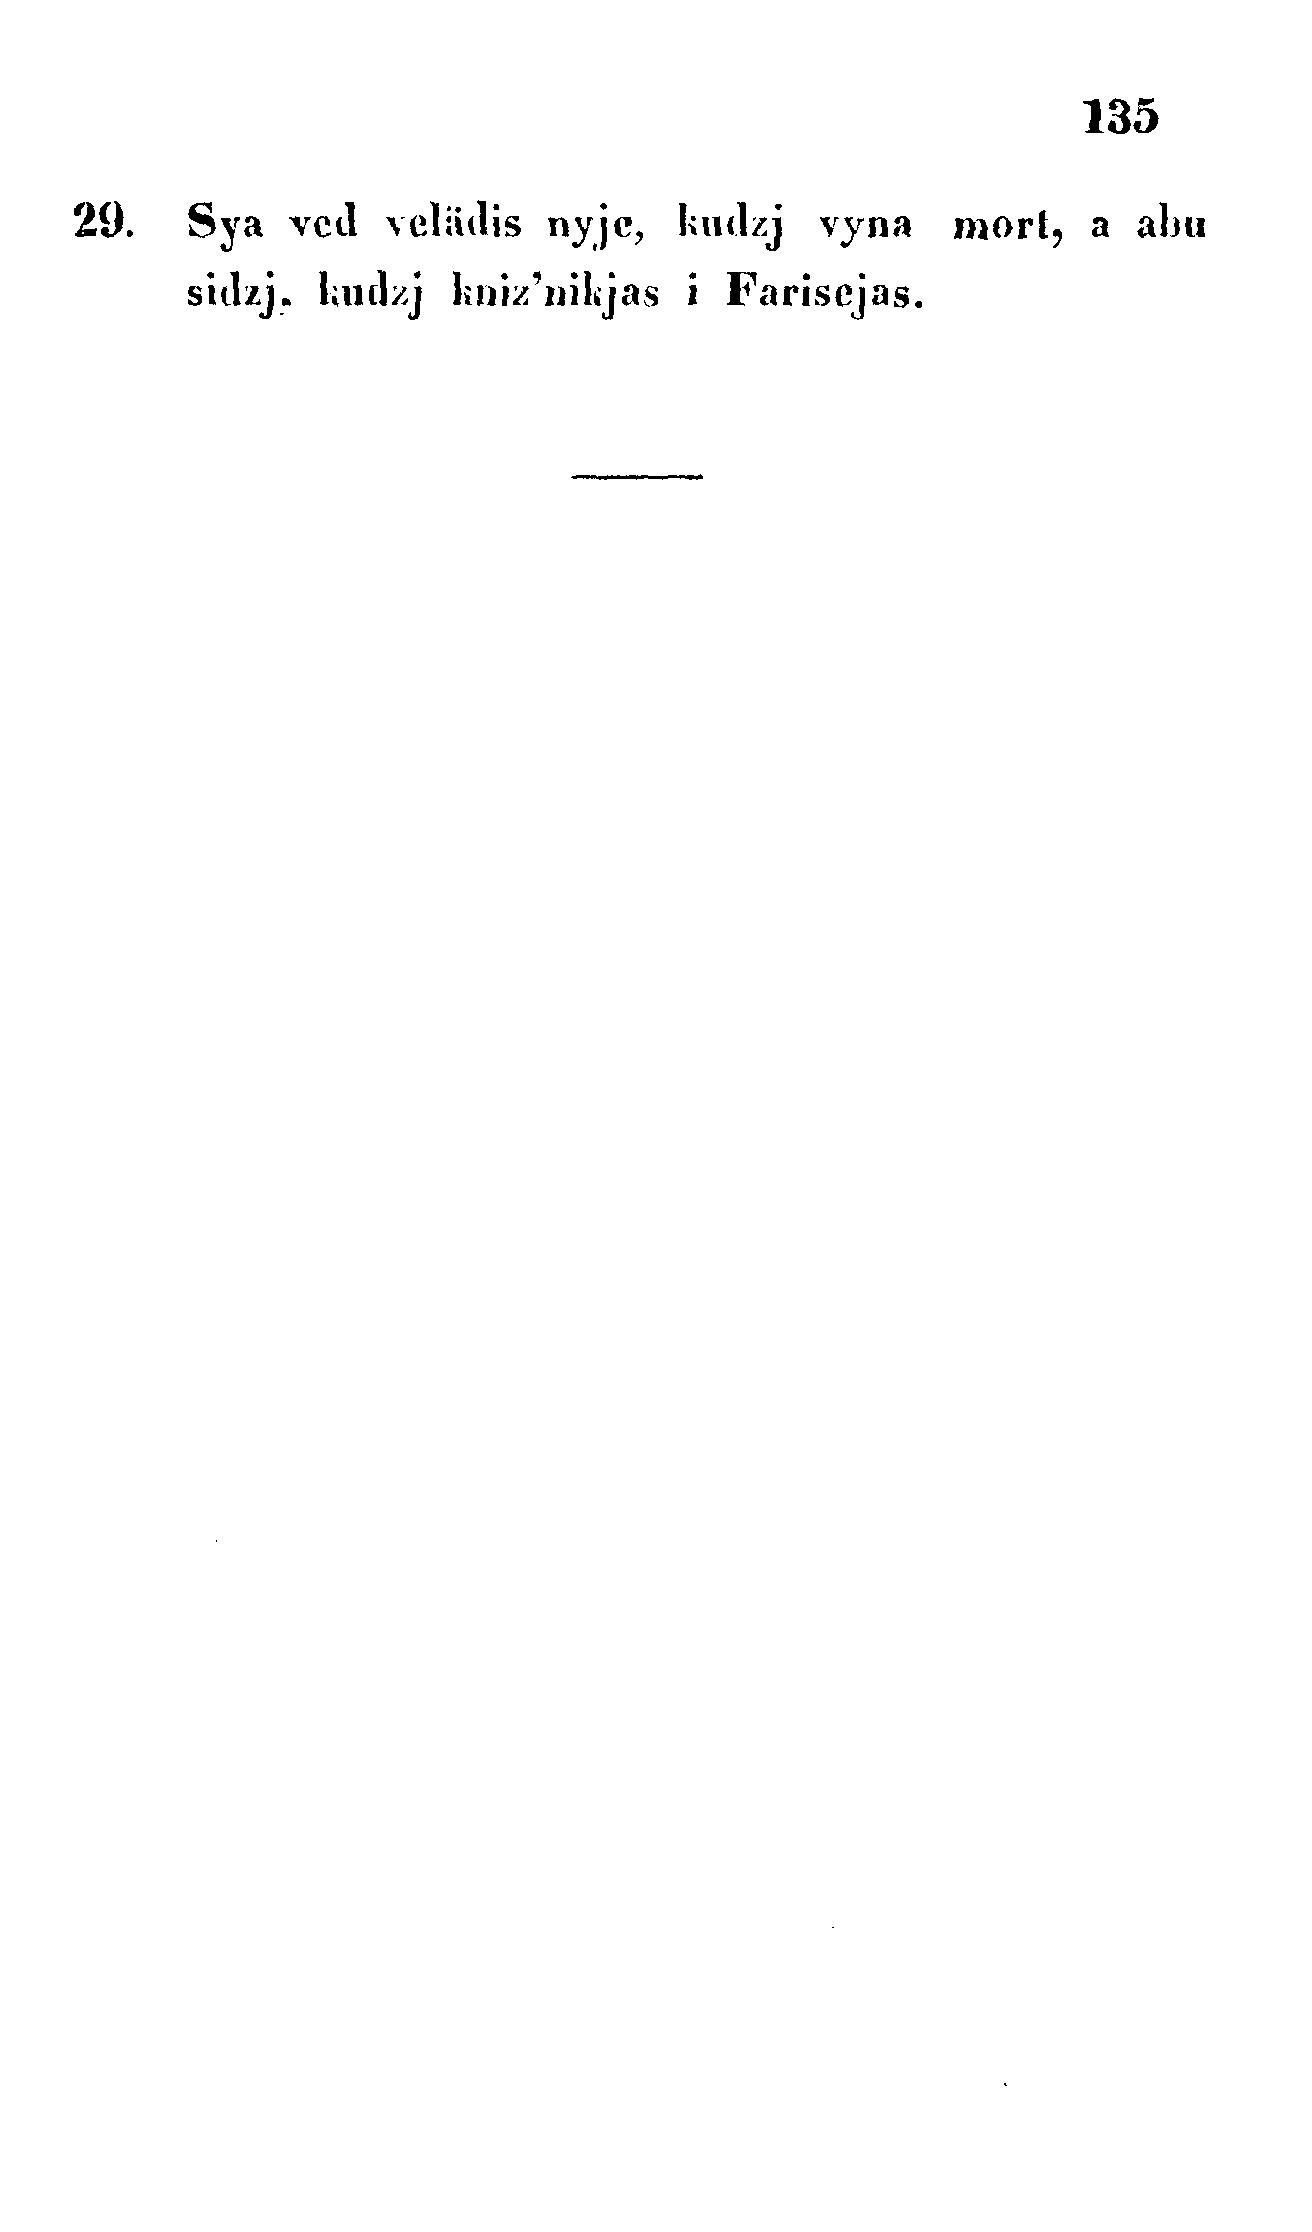135
29. Sya ved velädis nyje, kudzj vyna mort, a abu
sidzj. kudzj kniz'nikjas i Farisejas.
